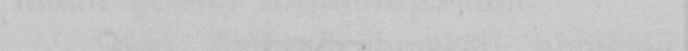hapsen.
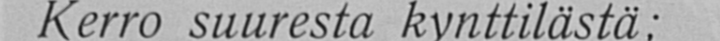Kerro suuresta kynttilästä;
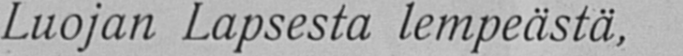Luojan Lapsesta lempeästä,
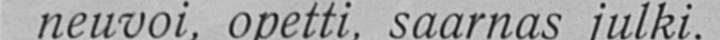neuvoi, opetti, saarnas julki.
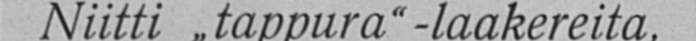Niitti „tappura" -laakereita,
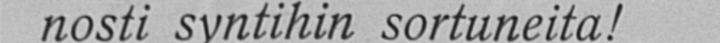nosti syntihin sortuneita!
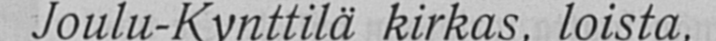Joulu-Kynttilä kirkas, loista,
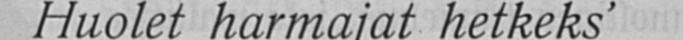Huolet harmajat hetkeks'
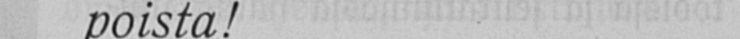poista!
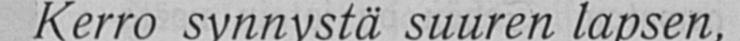Kerro synnystä suuren lapsen,
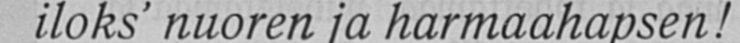iloks' nuoren ja harmaahapsen!
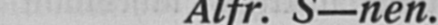Alfr. S—nen.
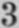3
